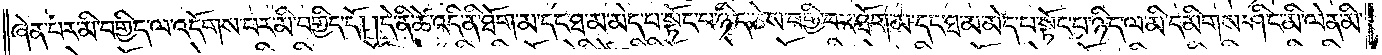ཞེན་པར་མི་བགྱིད་ལ་འདོགས་པར་མི་བགྱིད་དོ། །དེའི་ཚེ་འདི་ནི་ཐོག་མ་དང་ཐ་མ་མེད་པ་སྟོང་པ་ཉིད་ཅེས་བགྱི་བར་ཐོག་མ་དང་ཐ་མ་མེད་པ་སྟོང་པ་ཉིད་ལ་མི་དམིགས་ཤིང་མི་ལེན་མི་
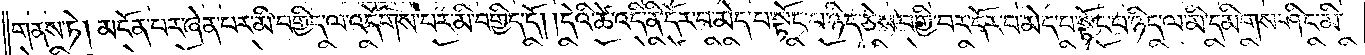གནས་ཏེ། མངོན་པར་ཞེན་པར་མི་བགྱིད་ལ་འདོགས་པར་མི་བགྱིད་དོ། །དེའི་ཚེ་འདི་ནི་དོར་བ་མེད་པ་སྟོང་པ་ཉིད་ཅེས་བགྱི་བར་དོར་བ་མེད་པ་སྟོང་པ་ཉིད་ལ་མི་དམིགས་ཤིང་མི་
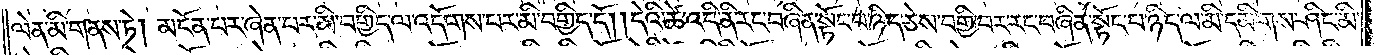ལེན་མི་གནས་ཏེ། མངོན་པར་ཞེན་པར་མི་བགྱིད་ལ་འདོགས་པར་མི་བགྱིད་དོ། །དེའི་ཚེ་འདི་ནི་རང་བཞིན་སྟོང་པ་ཉིད་ཅེས་བགྱི་བར་རང་བཞིན་སྟོང་པ་ཉིད་ལ་མི་དམིགས་ཤིང་མི་
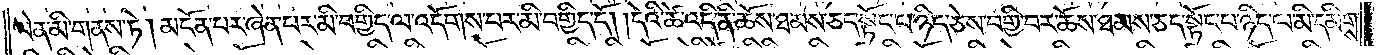ལེན་མི་གནས་ཏེ། མངོན་པར་ཞེན་པར་མི་བགྱིད་ལ་འདོགས་པར་མི་བགྱིད་དོ། །དེའི་ཚེ་འདི་ནི་ཆོས་ཐམས་ཅད་སྟོང་པ་ཉིད་ཅེས་བགྱི་བར་ཆོས་ཐམས་ཅད་སྟོང་པ་ཉིད་ལ་མི་དམིགས་
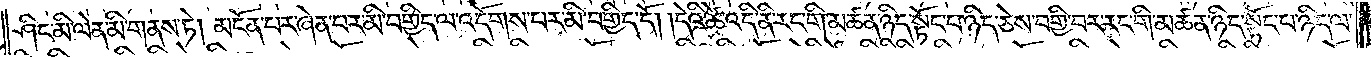ཤིང་མི་ལེན་མི་གནས་ཏེ། མངོན་པར་ཞེན་པར་མི་བགྱིད་ལ་འདོགས་པར་མི་བགྱིད་དོ། །དེའི་ཚེ་འདི་ནི་རང་གི་མཚན་ཉིད་སྟོང་པ་ཉིད་ཅེས་བགྱི་བར་རང་གི་མཚན་ཉིད་སྟོང་པ་ཉིད་ལ་
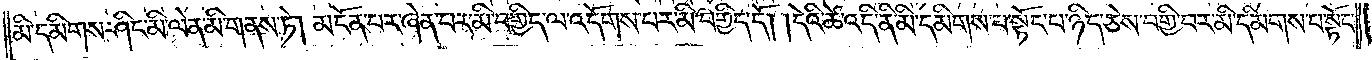མི་དམིགས་ཤིང་མི་ལེན་མི་གནས་ཏེ། མངོན་པར་ཞེན་པར་མི་བགྱིད་ལ་འདོགས་པར་མི་བགྱིད་དོ། །དེའི་ཚེ་འདི་ནི་མི་དམིགས་པ་སྟོང་པ་ཉིད་ཅེས་བགྱི་བར་མི་དམིགས་པ་སྟོང་
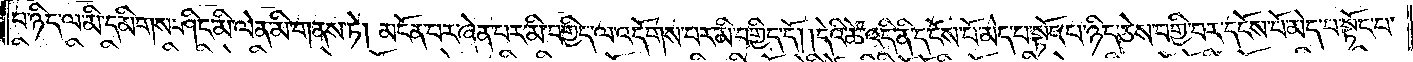པ་ཉིད་ལ་མི་དམིགས་ཤིང་མི་ལེན་མི་གནས་ཏེ། མངོན་པར་ཞེན་པར་མི་བགྱིད་ལ་འདོགས་པར་མི་བགྱིད་དོ། །དེའི་ཚེ་འདི་ནི་དངོས་པོ་མེད་པ་སྟོང་པ་ཉིད་ཅེས་བགྱི་བར་དངོས་པོ་མེད་པ་སྟོང་པ་
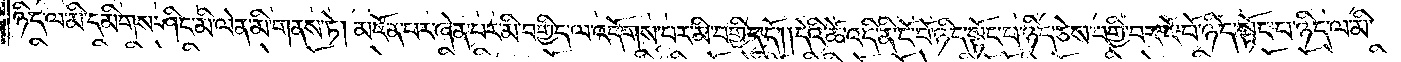ཉིད་ལ་མི་དམིགས་ཤིང་མི་ལེན་མི་གནས་ཏེ། མངོན་པར་ཞེན་པར་མི་བགྱིད་ལ་འདོགས་པར་མི་བགྱིད་དོ། །དེའི་ཚེ་འདི་ནི་ངོ་བོ་ཉིད་སྟོང་པ་ཉིད་ཅེས་བགྱི་བར་ངོ་བོ་ཉིད་སྟོང་པ་ཉིད་ལ་མི་
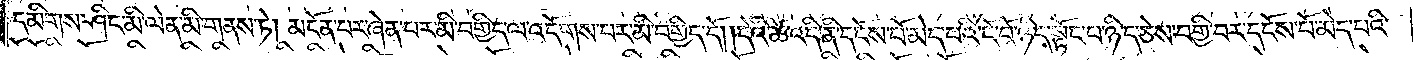དམིགས་ཤིང་མི་ལེན་མི་གནས་ཏེ། མངོན་པར་ཞེན་པར་མི་བགྱིད་ལ་འདོགས་པར་མི་བགྱིད་དོ། །དེའི་ཚེ་འདི་ནི་དངོས་པོ་མེད་པའི་ངོ་བོ་ཉིད་སྟོང་པ་ཉིད་ཅེས་བགྱི་བར་དངོས་པོ་མེད་པའི་
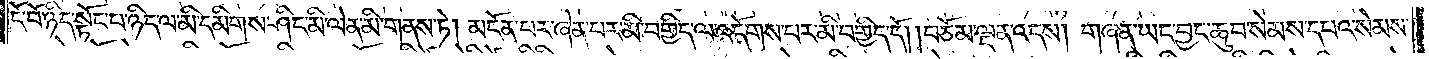ངོ་བོ་ཉིད་སྟོང་པ་ཉིད་ལ་མི་དམིགས་ཤིང་མི་ལེན་མི་གནས་ཏེ། མངོན་པར་ཞེན་པར་མི་བགྱིད་ལ་འདོགས་པར་མི་བགྱིད་དོ། །བཅོམ་ལྡན་འདས། གཞན་ཡང་བྱང་ཆུབ་སེམས་དཔའ་སེམས་
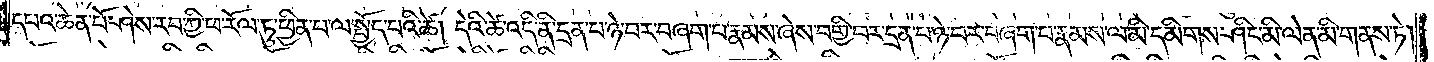དཔའ་ཆེན་པོ་ཤེས་རབ་ཀྱི་ཕ་རོལ་ཏུ་ཕྱིན་པ་ལ་སྤྱོད་པའི་ཚེ། དེའི་ཚེ་འདི་ནི་དྲན་པ་ཉེ་བར་བཞག་པ་རྣམས་ཞེས་བགྱི་བར་དྲན་པ་ཉེ་བར་བཞག་པ་རྣམས་ལ་མི་དམིགས་ཤིང་མི་ལན་མི་གནས་ཏེ།
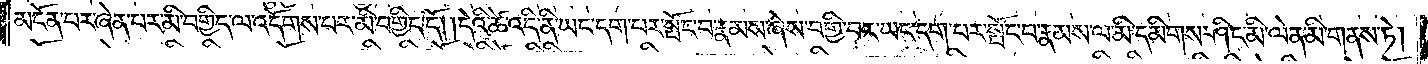མངོན་པར་ཞེན་པར་མི་བགྱིད་ལ་འདོགས་པར་མི་བགྱིད་དོ། །དེའི་ཚེ་འདི་ནི་ཡང་དག་པར་སྤོང་བ་རྣམས་ཞེས་བགྱི་བར་ཡང་དག་པར་སྤོང་བ་རྣམས་ལ་མི་དམིགས་ཤིང་མི་ལེན་མི་གནས་ཏེ།
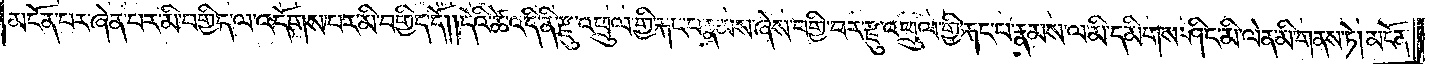མངོན་པར་ཞེན་པར་མི་བགྱིད་ལ་འདོགས་པར་མི་བགྱིད་དོ། །དེའི་ཚེ་འདི་ནི་རྫུ་འཕྲུལ་གྱི་རྐང་པ་རྣམས་ཞེས་བགྱི་བར་རྫུ་འཕྲུལ་གྱི་རྐང་པ་རྣམས་ལ་མི་དམིགས་ཤིང་མི་ལེན་མི་གནས་ཏེ། མངོན་
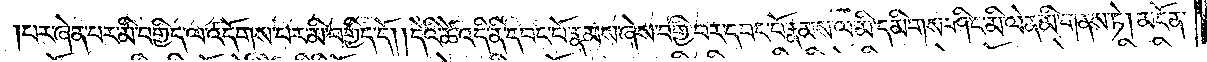པར་ཞེན་པར་མི་བགྱིད་ལ་འདོགས་པར་མི་བགྱིད་དོ། །དེའི་ཚེ་འདི་ནི་དབང་པོ་རྣམས་ཞེས་བགྱི་བར་དབང་པོ་རྣམས་ལ་མི་དམིགས་ཤིང་མི་ལེན་མི་གནས་ཏེ། མངོན་
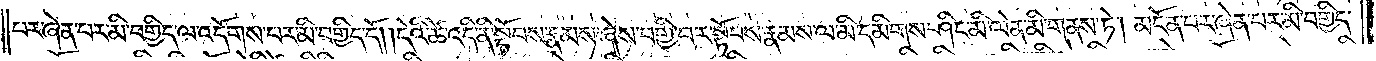པར་ཞེན་པར་མི་བགྱིད་ལ་འདོགས་པར་མི་བགྱིད་དོ། །དེའི་ཚེ་འདི་ནི་སྟོབས་རྣམས་ཞེས་བགྱི་བར་སྟོབས་རྣམས་ལ་མི་དམིགས་ཤིང་མི་ལེན་མི་གནས་ཏེ། མངོན་པར་ཞེན་པར་མི་བགྱིད་
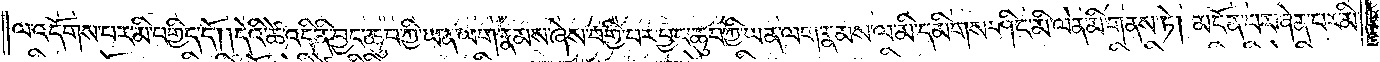ལ་འདོགས་པར་མི་བགྱིད་དོ། །དེའི་ཚེ་འདི་ནི་བྱང་ཆུབ་ཀྱི་ཡན་ལག་རྣམས་ཞེས་བགྱི་བར་བྱང་ཆུབ་ཀྱི་ཡན་ལག་རྣམས་ལ་མི་དམིགས་ཤིང་མི་ལེན་མི་གནས་ཏེ། མངོན་པར་ཞེན་པར་མི་
